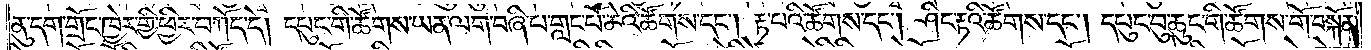ནུ་དག་གྲོང་ཁྱེར་གྱི་ཕྱིར་བཀོད་དེ། དཔུང་གི་ཚོགས་ཡན་ལག་བཞི་པ་གླང་པོ་ཆེའི་ཚོགས་དང༌། རྟ་པའི་ཚོགས་དང༌། ཤིང་རྟའི་ཚོགས་དང༌། དཔུང་བུ་ཆུང་གི་ཚོགས་གོ་བསྐོན་
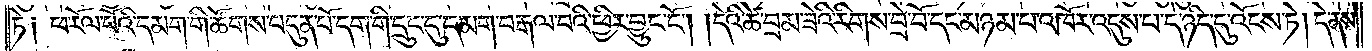ཏེ། ཕ་རོལ་པོའི་དམག་གི་ཚོགས་བདུན་པོ་དག་གི་དྲུང་དུ་དམག་བརྒལ་བའི་ཕྱིར་བྱུང་ངོ༌། །དེའི་ཚེ་བྲམ་ཟེའི་རིགས་བྲེ་བོ་དང་མཉམ་པ་འཁོར་འདུས་པ་དེ་ཉིད་དུ་འོངས་ཏེ། དེ་ནས་
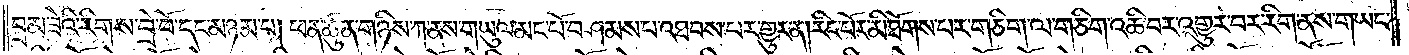།བྲམ་ཟེའི་རིགས་བྲེ་བོ་དང་མཉམ་པ། ཕན་ཚུན་གཉིས་ཀ་ནས་གཡུལ་མང་པོ་བཤམས་པ་འཐབས་པར་གྱུར་ན།རིང་པོར་མི་ཐོགས་པར་གཅིག་ལ་གཅིག་འཆི་བར་འགྱུར་བར་རིག་ནས་གཡང་
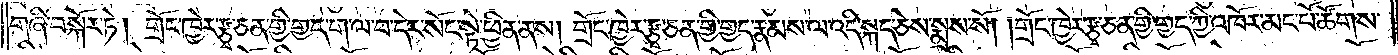གཞི་བསྐོར་ཏེ། གྲོང་ཁྱེར་རྩྭ་ཅན་གྱི་གྱད་ག་ལ་བ་དེར་སོང་སྟེ་ཕྱིན་ནས། གྲོང་ཁྱེར་རྩྭ་ཅན་གྱི་གྱད་རྣམས་ལ་འདི་སྐད་ཅེས་སྨྲས་སོ། །གྲོང་ཁྱེར་རྩྭ་ཅན་གྱི་གྱད་ཀྱི་འཁོར་མང་པོ་ཚོགས་
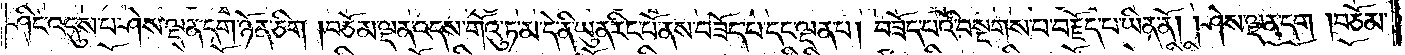ཤིང་འདུས་པ་ཤེས་ལྡན་དག་ཉོན་ཅིག །བཅོམ་ལྡན་འདས་གོའུ་ཏ་མ་དེ་ནི་ཡུན་རིང་པོ་ནས་བཟོད་པ་དང་ལྡན་པ། བཟོད་པའི་བསྔགས་པ་བརྗོད་པ་ཡིན་ནོ། །ཤེས་ལྡན་དག །བཅོམ་
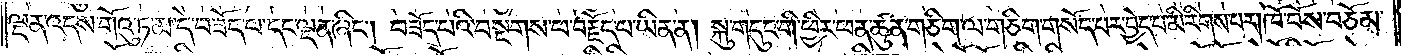ལྡན་འདས་གོའུ་ཏ་མ་དེ་བཟོད་པ་དང་ལྡན་ཞིང༌། བཟོད་པའི་བསྔགས་པ་བརྗོད་པ་ཡིན་ན། སྐུ་གདུང་གི་ཕྱིར་ཕན་ཚུན་གཅིག་ལ་གཅིག་གསོད་པར་བྱེད་པ་མི་རིགས་པར། ཁོ་བོས་བཅོམ་
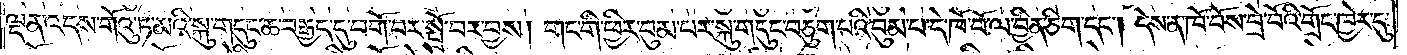ལྡན་འདས་གོའུ་ཏ་མའི་སྐུ་གདུང་ཆ་བརྒྱད་དུ་བགོ་བར་སྤྲོ་བར་བྱས། གང་གི་ཕྱིར་བུམ་པར་སྐུ་གདུང་བཅུག་པའི་བུམ་པ་དེ་ཁོ་བོ་ལ་བྱིན་ཅིག་དང༌། དེས་ན་ཁོ་བོས་བྲེ་བོའི་གྲོང་ཁྱེར་དུ་
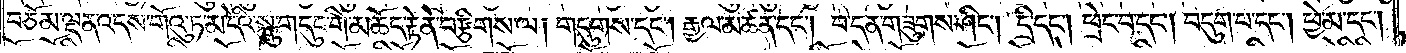བཅོམ་ལྡན་འདས་གོའུ་ཏ་མ་དེའི་སྐུ་གདུང་གི་མཆོད་རྟེན་ནེ་བརྩིགས་ལ། གདུགས་དང༌། རྒྱལ་མཚན་དང༌། བ་དན་གཟུགས་ཤིང༌། དྲི་དང༌། ཕྲེང་བ་དང༌། བདུག་པ་དང༌། ཕྱེ་མ་དང༌།
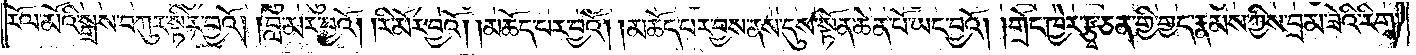རོལ་མོའི་སྒྲས་བཀུར་སྟིར་བྱའོ། བླ་མར་བྱའོ། །རི་མོར་བྱའོ། །མཆོད་པར་བྱའོ། །མཆོད་པར་བྱས་ནས་དུས་སྟོན་ཆེན་པོ་ཡང་བྱའོ། །གྲོང་ཁྱེར་རྩྭ་ཅན་གྱི་གྱད་རྣམས་ཀྱིས་བྲམ་ཟེའི་རིགས་
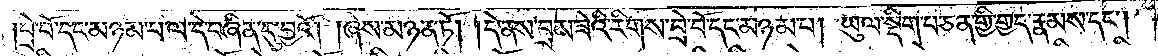།བྲེ་བོ་དང་མཉམ་པ་ལ་དེ་བཞིན་དུ་བྱའོ། །ཞེས་མཉན་ཏོ། །དེ་ནས་བྲམ་ཟེའི་རིགས་བྲེ་བོ་དང་མཉམ་པ། ཡུལ་སྡིག་པ་ཅན་གྱི་གྱད་རྣམས་དང༌།
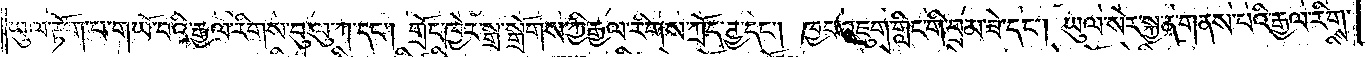ཡུལ་རྟོག་པ་གཡོ་བའི་རྒྱལ་རིགས་བུ་ལུ་ཀ་དང༌། གྲོང་ཁྱེར་སྒྲ་སྒྲོགས་ཀྱི་རྒྱལ་རིགས་ཀྲོད་ཊྱ་དང༌། ཁྱབ་འཇུག་གླིང་གི་བྲམ་ཟེ་དང༌། ཡུལ་སེར་སྐྱ་ན་གནས་པའི་རྒྱལ་རིགས་
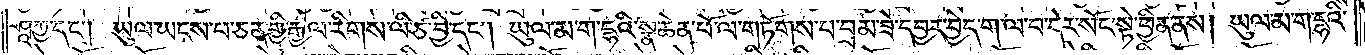ཤཱཀྱ་དང༌། ཡུལ་ཡངས་པ་ཅན་གྱི་རྒྱལ་རིགས་ལི་ཙ་བྱི་དང༌། ཡུལ་མ་ག་དྷའི་སྣ་ཆེན་པོ་ལ་གཏོགས་པ་བྲམ་ཟེ་དབྱར་བྱེད་ག་ལ་བ་དེར་སོང་སྟེ་ཕྱིན་ནས། ཡུལ་མ་ག་དྷའི་
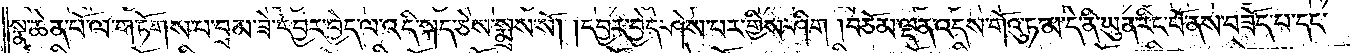སྣ་ཆེན་པོ་ལ་གཏོགས་པ་བྲམ་ཟེ་དབྱར་བྱེད་ལ་འདི་སྐད་ཅེས་སྨྲས་སོ། །དབྱར་བྱེད་ཤེས་པར་གྱིས་ཤིག །བཅོམ་ལྡན་འདས་གོའུ་ཏ་མ་དེ་ནི་ཡུན་རིང་པོ་ནས་བཟོད་པ་དང༌།
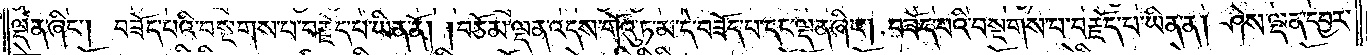ལྡན་ཞིང༌། བཟོད་པའི་བསྔགས་པ་བརྗོད་པ་ཡིན་ནོ། །བཅོམ་ལྡན་འདས་གོའུ་ཏ་མ་དེ་བཟོད་པ་དང་ལྡན་ཞིང༌། བཟོད་པའི་བསྔགས་པ་བརྗོད་པ་ཡིན་ན། ཤེས་ལྡན་དབྱར་
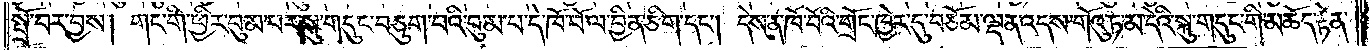སྤྲོ་བར་བྱས། གང་གི་ཕྱིར་བུམ་པར་སྐུ་གདུང་བཅུག་པའི་བུམ་པ་དེ་ཁོ་བོ་ལ་བྱིན་ཅིག་དང༌། དེས་ན་ཁོ་བོའི་གྲོང་ཁྱེར་དུ་བཅོམ་ལྡན་འདས་གོའུ་ཏ་མ་དེའི་སྐུ་གདུང་གི་མཆོད་རྟེན་
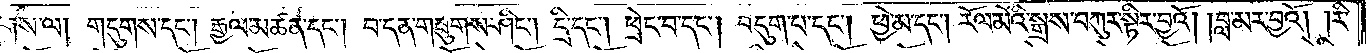བརྩིགས་ལ། གདུགས་དང༌། རྒྱལ་མཚན་དང༌། བ་དན་གཟུགས་ཤིང༌། དྲི་དང༌། ཕྲེང་བ་དང༌། བདུག་པ་དང༌། ཕྱེ་མ་དང༌། རོལ་མོའི་སྒྲས་བཀུར་སྟིར་བྱའོ། །བླ་མར་བྱའོ། །རི་
